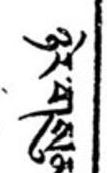ཉེར་གསུམ་
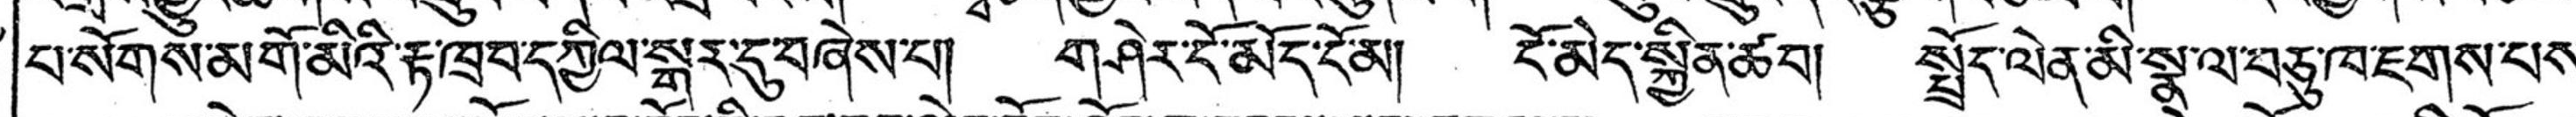པ་སོགས་མགོ་མིའི་རྟ་ཁྲབ་དཀྱིལ་སྒར་དུ་བཞེས་པ། གཤེར་ངོ་མོད་ངོ་མ། ངོ་མེད་སྐྱིན་ཚབ། སྤྲོད་ལེན་མི་སྣ་ལ་བཅུ་ཁ་ཇགས་པས་
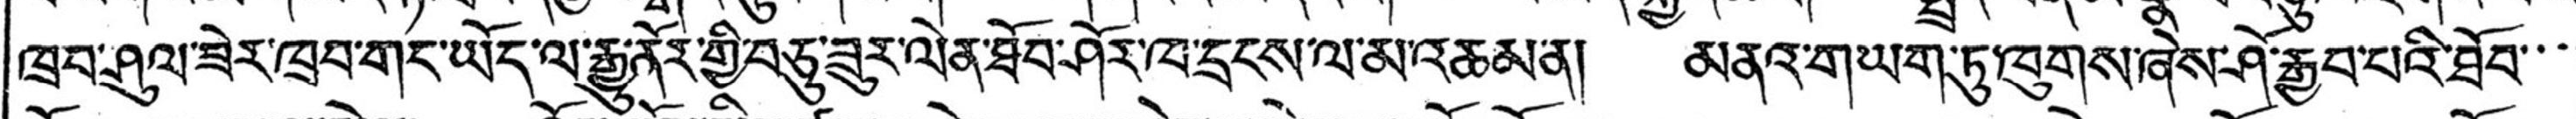ཁྲབ་ཤུལ་ཟེར་ཁྲབ་གང་ཡོད་ལ་རྒྱུ་ནོར་གྱི་བཅུ་ཟུར་ལེན་ཐོབ་ཤོར་ལ་དྲངས་ལ་མ་འཆམ་ན། མནའ་གཡག་ཏུ་ཁུགས་ཞེས་ཤོ་རྒྱབ་པའི་ཐོབ་་་་
